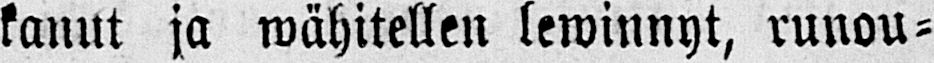kanut ja wähitellen lewinnyt, runou-
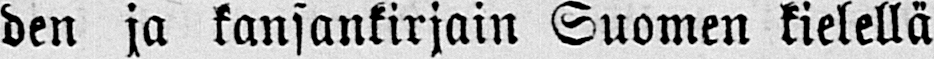den ja kansankirjain Suomen kielellä
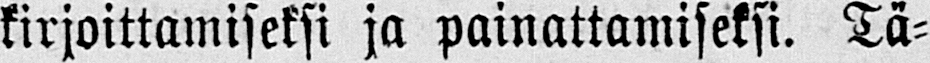kirjoittamiseksi ja painattamiseksi. Tä-
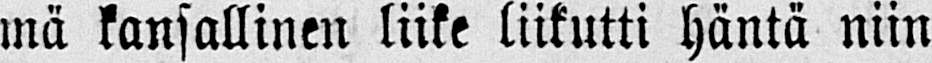mä kansallinen liike liikutti häntä niin
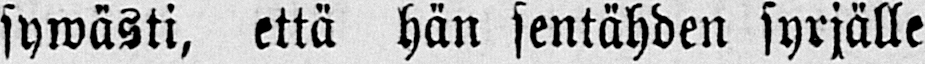sywästi, että hän sentähden syrjälle
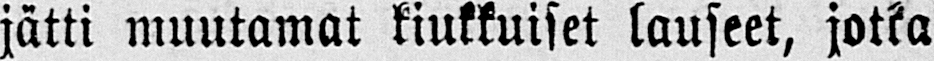jätti muutamat kiukkuiset lauseet, jotka
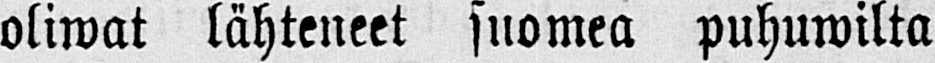oliwat lähteneet suomea puhuwilta
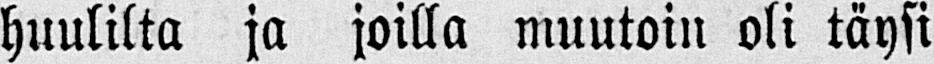huulilta ja joilla muutoin oli täysi
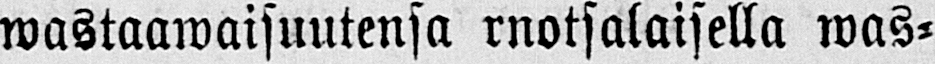wastaawaisuutensa ruotsalaisella was-
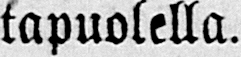tapuolella.
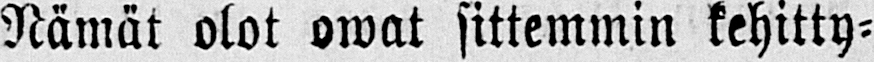Nämät olot owat sittemmin kehitty-
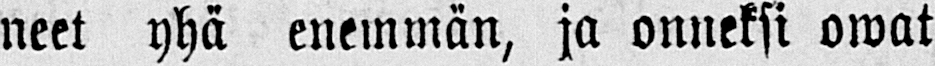neet yhä enemmän, ja onneksi owat
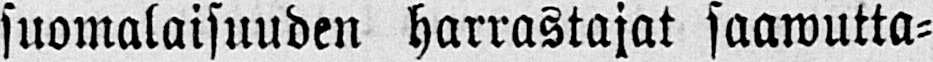suomalaisuuden harrastajat saawutta-
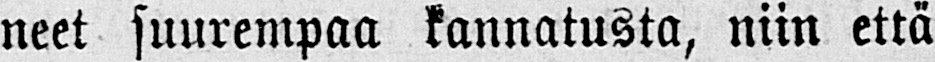neet suurempaa kannatusta, niin että
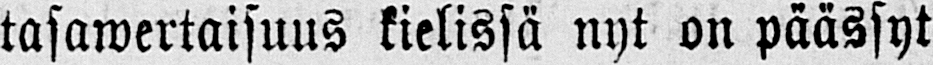tasawertaisuus kielissä nyt on päässyt
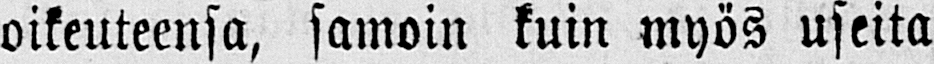oikeuteensa, samoin kuin myös useita
